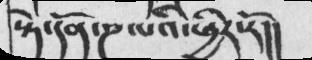སྱེ་དོན་ཎ་པའི་ཕྱིར་རོ།།
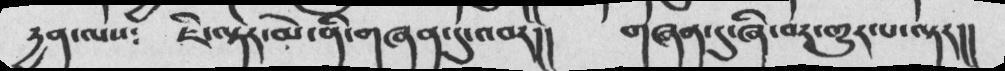དྱན་ལས༴   ཇི་ལྟར་མེ་ནི་གཞན་དུ་འབར།།   གཞན་དུ་ཞི་བར་གྱུར་པ་ལྟར།།
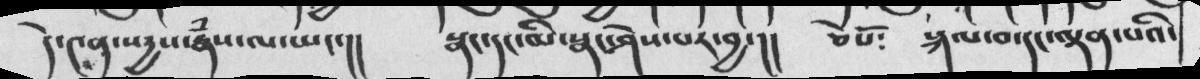དེ་༤ན་སདྱས་རྣཾས་ལ་ཡང་།།      སྣང་དང་མི་སྣང་ཤེས་པར་བྱ་།།   ཅེསོ༴   སྐལ་བ་དང་ལྡན་པའི་
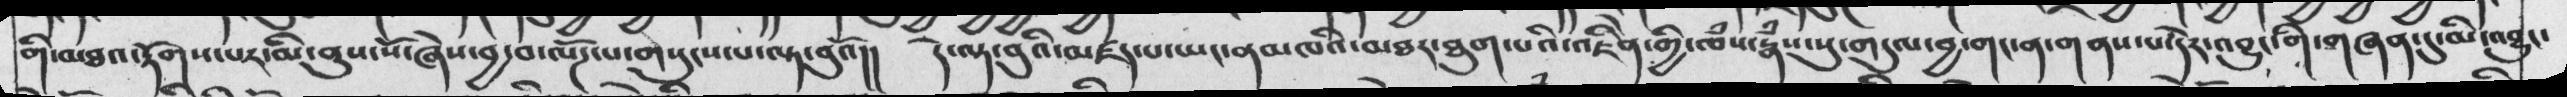གི་མཐའ་རྟོགས་པར་མི་ནུས་སོ་ཞེས་བྱ་བ་ལོཌ་པ་གསུངས་པ་ལྟ་བུའོ།།   དེ་ལྟ་བུའི་མཛད་པ་ཡང་ནམཁའི་མཐར་ཐུག་པའི་འཇིེན་གྱི་ཁཾས་རྣཾས་སུ་གདུལ་བྱ་གང་ན་གནས་པ་དེར་འབྱུང་གི་གཞན་དུ་མི་འབྱུང་
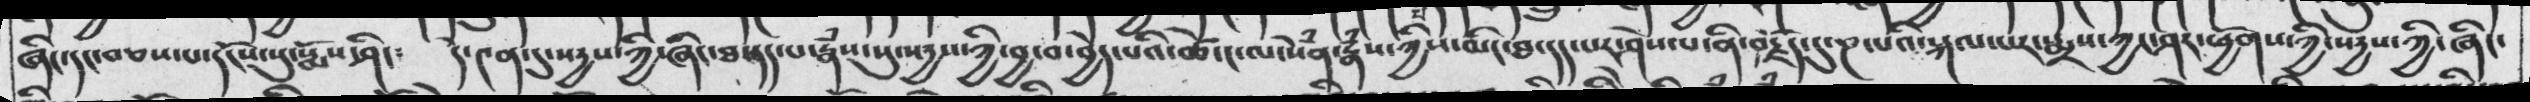ཞིང་དང་བཅས་པ་དངོས་སུ་སྨོས་ཤིང༴   དེ་༤ན་དུ་སདྱས་ཀྱི་ཞིང་ཐ་དད་པ་རྣཾས་སུ་སདྱས་ཀྱི་བྱ་བ་བྱེད་པའི་ཚེ་ང་ལ་སེཾན་རྣཾས་ཀྱིས་མིང་ཐ་དད་པར་ཤེས་པ་ནི་བརྗོད་དུ་ཎ་པའི་སྐལ་པར་སྨྲས་ཀྱང་ཤར་ཕྱོགས་ཀྱི་སདྱས་ཀྱི་ཞིང་
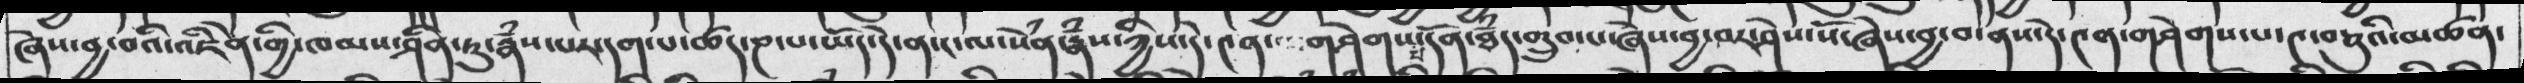ཞེས་བྱ་བའི་འཇིེན་གྱི་ཁམས་ཤིན་ཏུ་རྣཾས་པར་དག་པ་ཚད་ཎ་པ་ཡོད་དེ་ན་ང་ལ་སེཾན་རྣཾས་ཀྱིས་དེ་༤ན་གཤེགས་པ་དོན་ཐཾད་གྲུབ་པ་ཞེས་བྱ་བར་ཤེས་སོ་ཞེས་བྱ་བ་ནས་དེ་༤ན་གཤེགས་པ་༤་བཅུའི་མཚན་
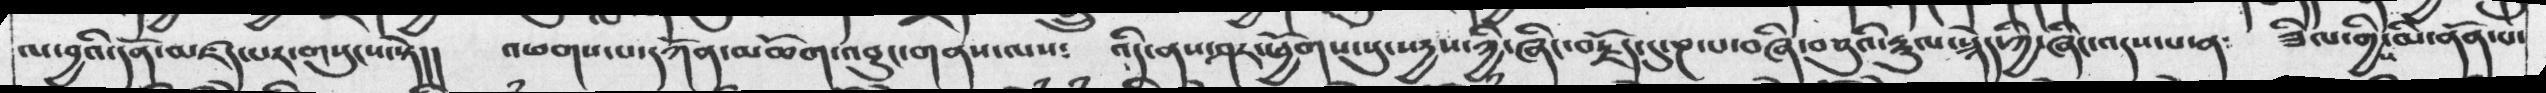ལ་བྱའི་དོན་མཛད་པར་གསུངས་སྟེ།།  འཕགས་པ་དཀོན་མཆོག་འབྱུང་གནས་ལས༴  འདི་ས་ཤར་ཕྱོགས་སུ་སདྱས་ཀྱི་ཞིང་བརྗོད་དུ་ཎ་པ་བཞི་བཅུའི་སྡུལ་སྙེད་ཀྱི་ཞིང་འདས་པ་ན༴  ཟིལ་གྱིས་ནོན་པ་
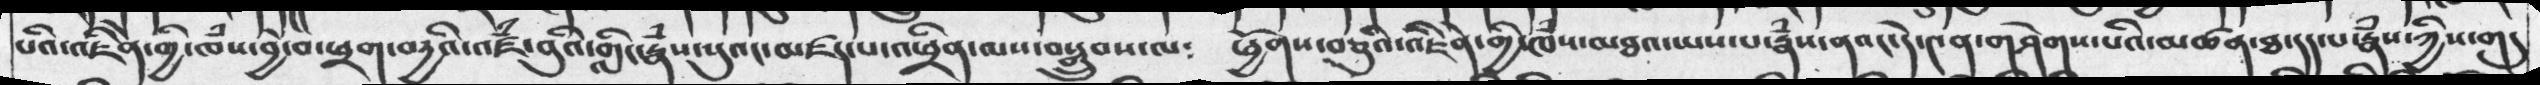པའི་འཇིེན་གྱ་ཁཾས་བྱེ་བ་ཕྲག་བདྱའི་འཛཾ་བུའི་གླིང་རྣཾས་སུའང་མཛད་པ་འཕྲིན་ལས་བསྒྲུབས་ལ༴   ཕྱོགས་བཅུའི་འཇིེན་གྱི་ཁཾས་མཐའ་ཡས་པ་རྣཾས་ནའང་དེ་༤ན་གཤེགས་པའི་མཚན་ཐ་དད་པ་རྣཾས་ཀྱི་གདུ
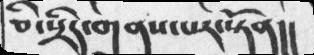ཅི་སྲིད་གནས་པར་སྟོན།།
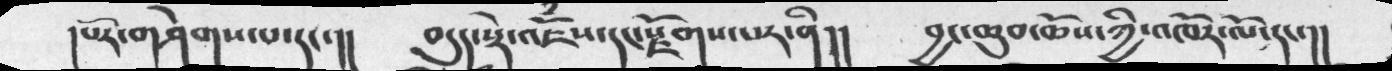།པོར་གཤེགས་པ་དང་།།   བདུད་སྟེ་འཇོཾས་དང་རྫོགས་པར་ནི།།     བྱང་ཆུབ་ཆོས་ཀྱི་འཁོར་ལོ་དང་།།
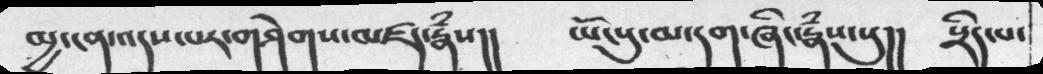མྱ་ངན་འདས་པར་གཤེགས་མཛད་རྣཾས།།    ཡོངས་སུ་མ་དག་ཞིང་རྣཾས་སུ།།   སྲིད་པ་
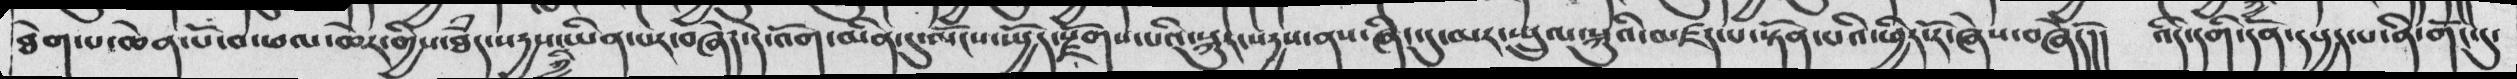ཐེག་པ་ཆེན་པོ་བ་ཕལ་ཆེར་གྱིས་ཐཾད་སདྱས་ཀྱི་ཡིན་པར་བཞེད་དེ་འོག་མིན་དུ་ལོངས་སྤྱོད་རྫོགས་པའི་སྐུར་སདྱས་ནས་ཞིང་དུ་མར་སྤྲུལ་སྐུའི་མཛད་པ་སྟོན་པའི་ཕྱིར་རོ་ཞེས་བཞེདོ།།   འདི་དག་གི་དོན་དཔྱད་པ་ནི་གོང་དུ་
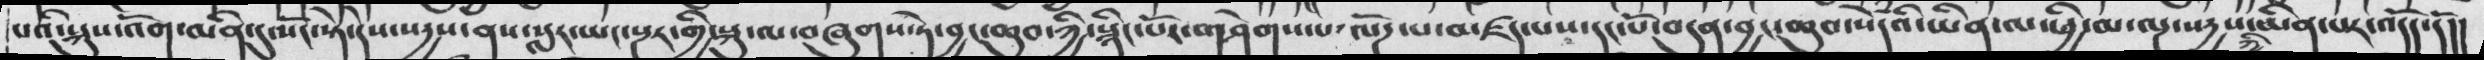པའི་སྐུས་འོག་མིན་དུ་སོང་སྟེ་དེས་སདྱས་ནས་སླར་ཡང་སྔར་གྱི་སྐུ་ལ་བཞུགས་ཏེ་་བྱང་ཆུབ་ཀྱི་སྙིང་པོར་གཤེགས་པ་ལོཌ་པ་མཛད་པས་དང་པ་བདུན་བྱང་ཆུབ་སེཾདའ་ཡིན་ལ་ཕྱི་མ་ལྔ་སདྱས་ཀྱི་མིན་པར་འདོད་དོ།།
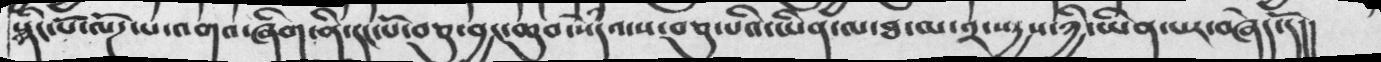སྙིང་པོ་ལོཌ་པ་འགའ་ཞིག་ནི་དང་པོ་བཅུ་བྱང་ཆུབ་སེཾདའ་ས་བཅུ་པའི་ཡིན་ལ་ཐ་མ་༢་སདྱས་ཀྱི་ཡིན་པར་བཞེད་དོ།།
